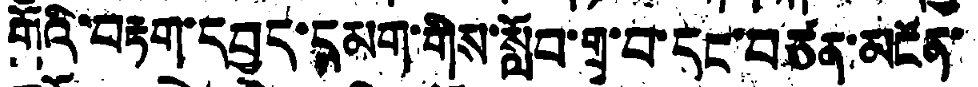རྒོའི་བརྟག་དབྱད་དམག་གིས་སློབ་གྲྭ་བ་དང་བཙན་མངོན་
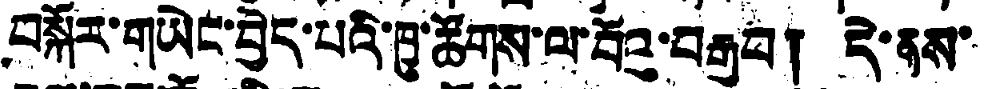བསྐོར་གཡེང་བྱེད་པའི་ཁྱུ་ཚོགས་ལ་བོའུ་བརྒྱབ། དེ་ནས་
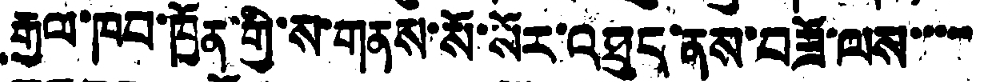རྒྱལ་ཁབ་ཁྱོན་གྱི་ས་གནས་སོ་སོར་འཐུད་ནས་བཟོ་ལས་་་་་
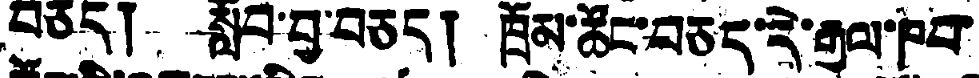བཅད། སློབ་བྱ་བཅད། ཁྲོམ་ཚོང་བཅད་དེ་རྒྱལ་ཁབ་
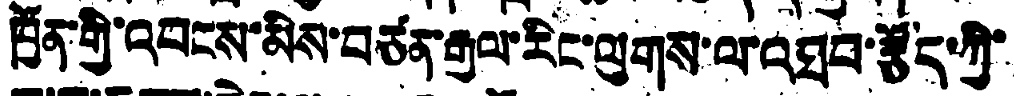ཁྱོན་གྱི་འབངས་མིས་བཙན་རྒྱལ་རིང་ལུགས་ལ་འཐབ་རྩོད་ཀྱི་
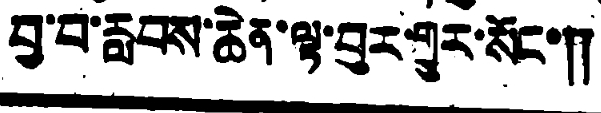བྱ་བ་རླབས་ཆེན་ལྟ་བུར་གྱུར་སོང་།།
